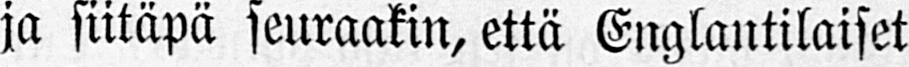ja siitäpä seuraakin, että Englantilaiset
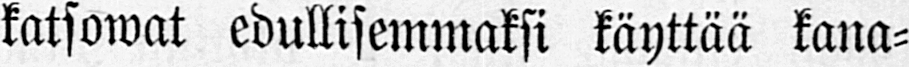katsowat edullisemmaksi käyttää kana-
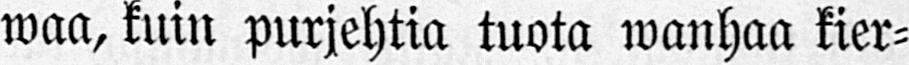waa, kuin purjehtia tuota wanhaa kier-
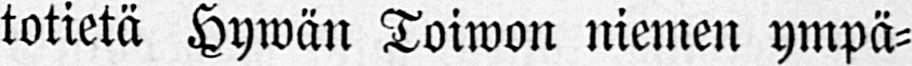totietä Hywän Toiwon niemen ympä-
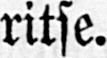ritse.
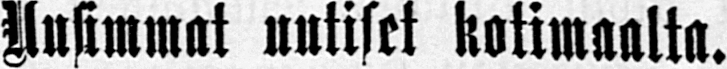Uusimmat uutiset kotimaalta.
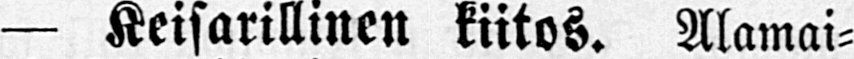— Keisarillinen kiitos. Alamai-
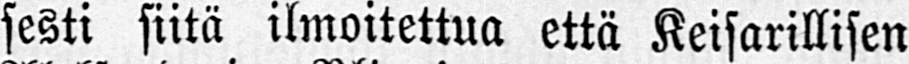sesti siitä ilmoitettua että Keisarillisen
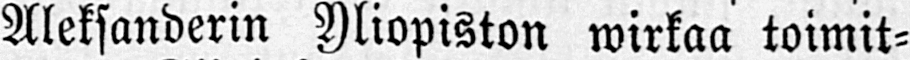Aleksanderin Yliopiston wirkaa toimit-
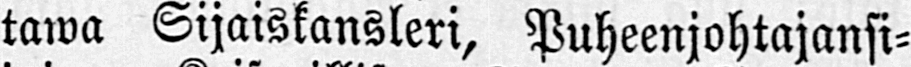tawa Sijaiskansleri, Puheenjohtajansi-
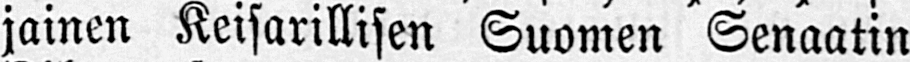jainen Keisarillisen Suomen Senaatin
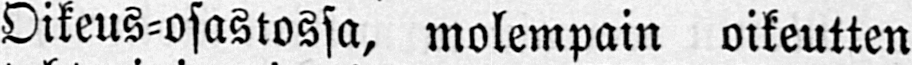Oikeus-osastossa, molempain oikeutten
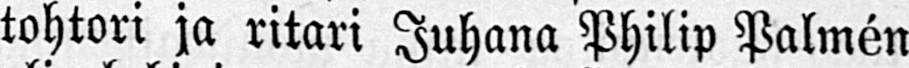tohtori ja ritari Juhana Philip Palmén
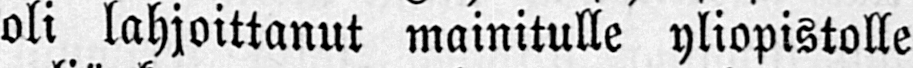oli lahjoittanut mainitulle yliopistolle
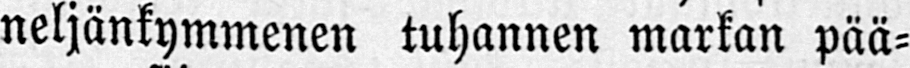neljänkymmenen tuhannen markan pää-
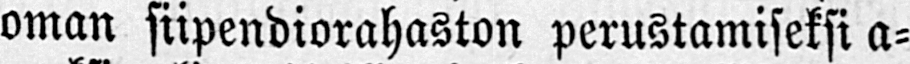oman siipendiorahaston perustamiseksi a-
